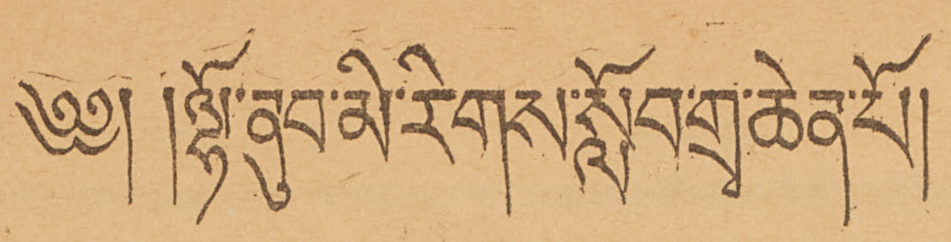༄༅། །ལྷོ་ནུབ་མི་རིགས་སློབ་གྲྭ་ཆེན་པོ།
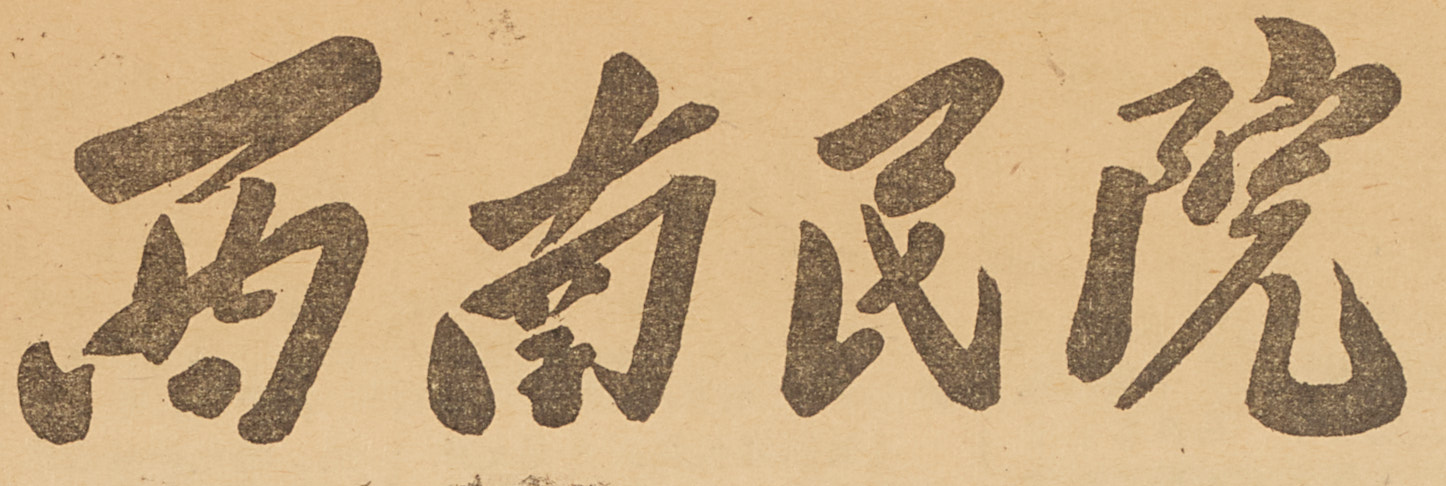西南民院
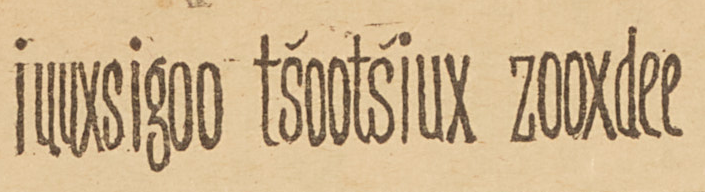iuuxsigoo ts'oots'iux zooxdee
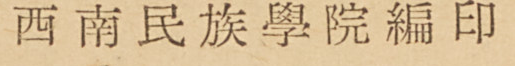西南民族學院編印
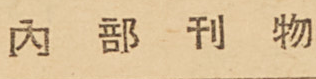內部刊物
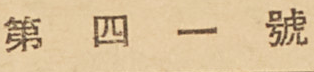第四一號
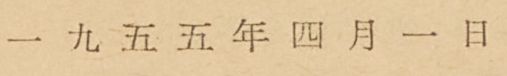一九五五年四月一日
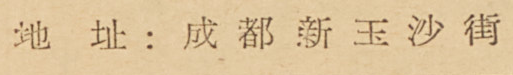地址：成都新玉沙街
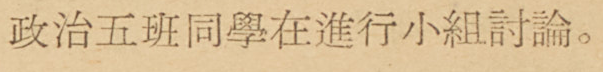政治五班同學在進行小組討論。
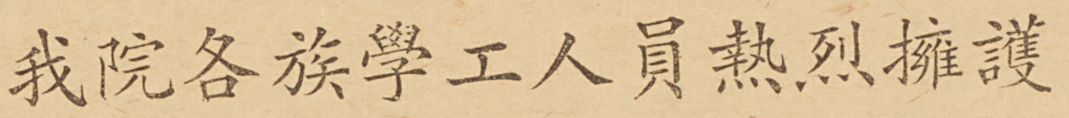我院各族學工人員熱烈擁護
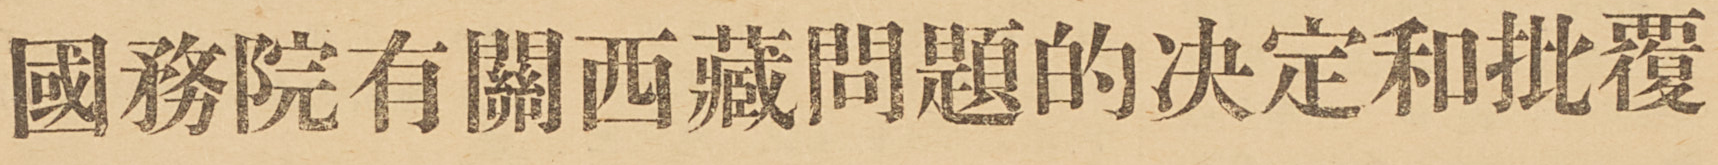國務院有關西藏問題的決定和批覆
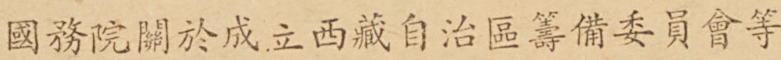國務院關於成立西藏自治區籌備委員會等
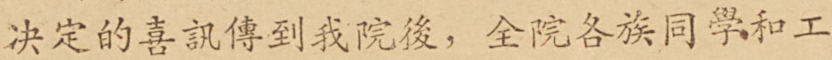決定的喜訊傳到我院後，全院各族同學和工
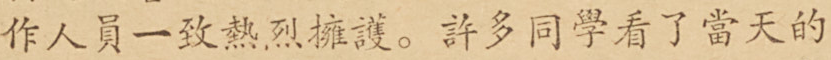作人員一致熱烈擁護。許多同學看了當天的
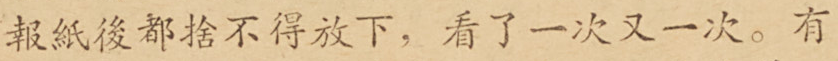報紙後的歐捨不得放下，看了一次又一次。有
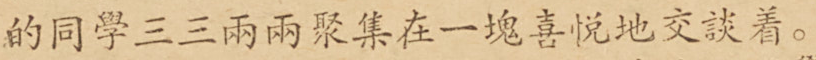的同學三三兩兩聚集在一塊喜悅地交談着。
